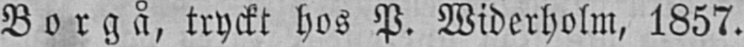Borgå, tryckt hos P. Widerholm, 1857.
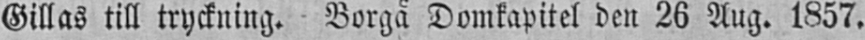Gillas till tryckning. Borgå Domkapitel den 26 Aug. 1857.
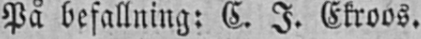På befallning: C. I. Ekroos.
